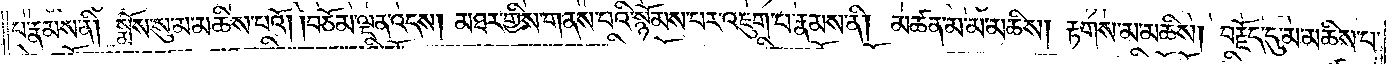པ་རྣམས་ནི། སྨོས་སུ་མ་མཆིས་པའོ། །བཅོམ་ལྡན་འདས། མཐར་གྱིས་གནས་པའི་སྙོམས་པར་འཇུག་པ་རྣམས་ནི། མཚན་མ་མ་མཆིས། རྟགས་མ་མཆིས། བརྗོད་དུ་མ་མཆིས་པ་
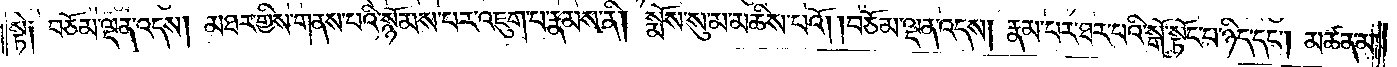སྟེ༑ བཅོམ་ལྡན་འདས། མཐར་གྱིས་གནས་པའི་སྙོམས་པར་འཇུག་པ་རྣམས་ནི། སྨོས་སུ་མ་མཆིས་པའོ། །བཅོམ་ལྡན་འདས། རྣམ་པར་ཐར་པའི་སྒོ་སྟོང་པ་ཉིད་དང༌། མཚན་མ་
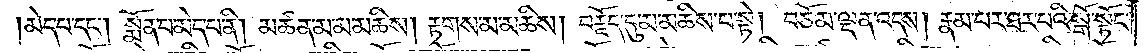མེད་པ་དང༌། སྨོན་པ་མེད་པ་ནི། མཚན་མ་མ་མཆིས། རྟགས་མ་མཆིས། བརྗོད་དུ་མ་མཆིས་པ་སྟེ། བཅོམ་ལྡན་འདས། རྣམ་པར་ཐར་པའི་སྒོ་སྟོང་
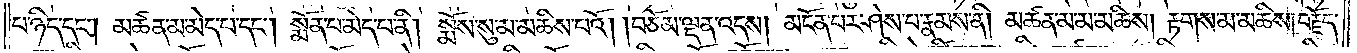པ་ཉིད་དང༌། མཚན་མ་མེད་པ་དང༌། སྨོན་པ་མེད་པ་ནི། སྨོས་སུ་མ་མཆིས་པའོ། །བཅོམ་ལྡན་འདས། མངོན་པར་ཤེས་པ་རྣམས་ནི། མཚན་མ་མ་མཆིས། རྟགས་མ་མཆིས། བརྗོད་
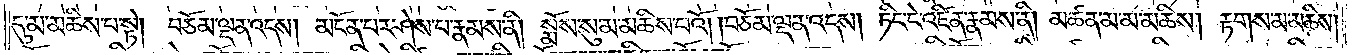དུ་མ་མཆིས་པ་སྟེ། བཅོམ་ལྡན་འདས། མངོན་པར་ཤེས་པ་རྣམས་ནི། སྨོས་སུ་མ་མཆིས་པའོ། །བཅོམ་ལྡན་འདས། ཏིང་ངེ་འཛིན་རྣམས་ནི། མཚན་མ་མ་མཆིས། རྟགས་མ་མཆིས།
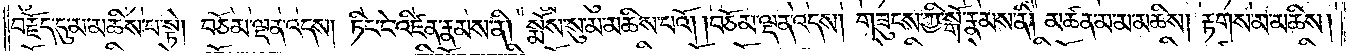བརྗོད་དུ་མ་མཆིས་པ་སྟེ། བཅོམ་ལྡན་འདས། ཏིང་ངེ་འཛིན་རྣམས་ནི། སྨོས་སུ་མ་མཆིས་པའོ། །བཅོམ་ལྡན་འདས། གཟུངས་ཀྱི་སྒོ་རྣམས་ནི། མཚན་མ་མ་མཆིས། རྟགས་མ་མཆིས།
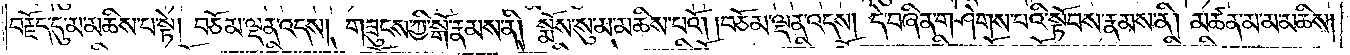བརྗོད་དུ་མ་མཆིས་པ་སྟེ། བཅོམ་ལྡན་འདས། གཟུངས་ཀྱི་སྒོ་རྣམས་ནི། སྨོས་སུ་མ་མཆིས་པའོ། །བཅོམ་ལྡན་འདས། དེ་བཞིན་གཤེགས་པའི་སྟོབས་རྣམས་ནི། མཚན་མ་མ་མཆིས།
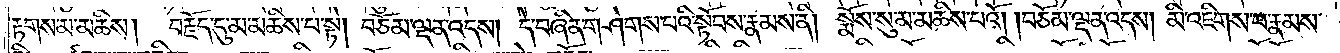རྟགས་མ་མཆིས། བརྗོད་དུ་མ་མཆིས་པ་སྟེ། བཅོམ་ལྡན་འདས། དེ་བཞིན་གཤེགས་པའི་སྟོབས་རྣམས་ནི། སྨོས་སུ་མ་མཆིས་པའོ། །བཅོམ་ལྡན་འདས། མི་འཇིགས་པ་རྣམས་
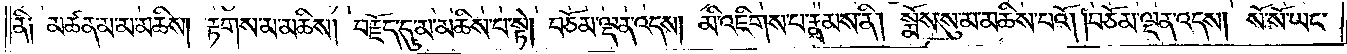ནི༑ མཚན་མ་མ་མཆིས། རྟགས་མ་མཆིས། བརྗོད་དུ་མ་མཆིས་པ་སྟེ། བཅོམ་ལྡན་འདས། མི་འཇིགས་པ་རྣམས་ནི། སྨོས་སུ་མ་མཆིས་པའོ། །བཅོམ་ལྡན་འདས། སོ་སོ་ཡང་
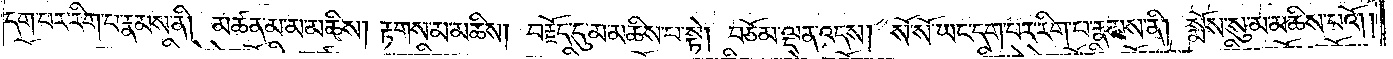དག་པར་རིག་པ་རྣམས་ནི། མཚན་མ་མ་མཆིས། རྟགས་མ་མཆིས། བརྗོད་དུ་མ་མཆིས་པ་སྟེ། བཅོམ་ལྡན་འདས། སོ་སོ་ཡང་དག་པར་རིག་པ་རྣམས་ནི། སྨོས་སུ་མ་མཆིས་པའོ། །
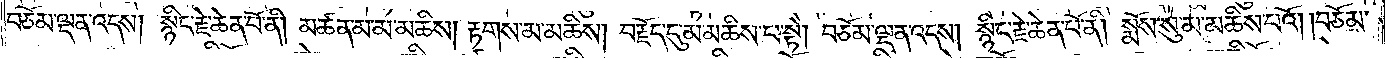བཅོམ་ལྡན་འདས། སྙིང་རྗེ་ཆེན་པོ་ནི། མཚན་མ་མ་མཆིས། རྟགས་མ་མཆིས། བརྗོད་དུ་མ་མཆིས་པ་སྟེ། བཅོམ་ལྡན་འདས། སྙིང་རྗེ་ཆེན་པོ་ནི། སྨོས་སུ་མ་མཆིས་པའོ། །བཅོམ་
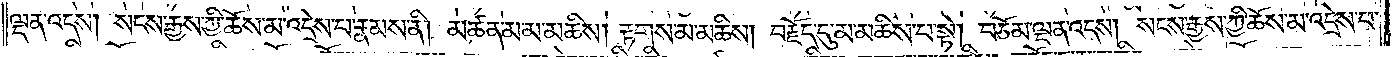ལྡན་འདས། སངས་རྒྱས་ཀྱི་ཆོས་མ་འདྲེས་པ་རྣམས་ནི། མཚན་མ་མ་མཆིས། རྟགས་མ་མཆིས། བརྗོད་དུ་མ་མཆིས་པ་སྟེ། བཅོམ་ལྡན་འདས། སངས་རྒྱས་ཀྱི་ཆོས་མ་འདྲེས་པ་
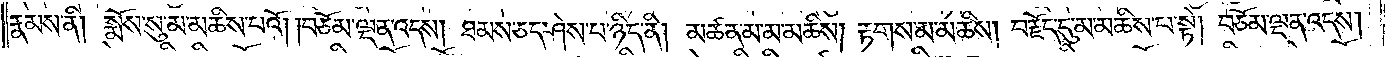རྣམས་ནི། སྨོས་སུ་མ་མཆིས་པའོ། །བཅོམ་ལྡན་འདས། ཐམས་ཅད་ཤེས་པ་ཉིད་ནི། མཚན་མ་མ་མཆིས། རྟགས་མ་མཆིས། བརྗོད་དུ་མ་མཆིས་པ་སྟེ། བཅོམ་ལྡན་འདས།
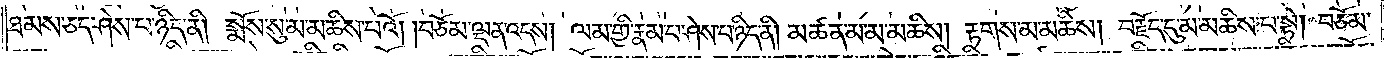ཐམས་ཅད་ཤེས་པ་ཉིད་ནི། སྨོས་སུ་མ་མཆིས་པའོ། །བཅོམ་ལྡན་འདས། ལམ་གྱི་རྣམ་པ་ཤེས་པ་ཉིད་ནི། མཚན་མ་མ་མཆིས། རྟགས་མ་མཆིས། བརྗོད་དུ་མ་མཆིས་པ་སྟེ། བཅོམ་
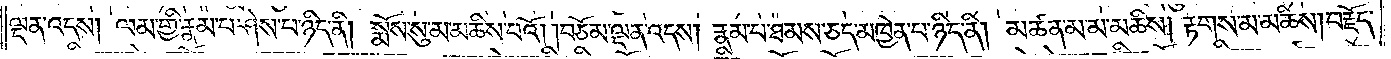ལྡན་འདས། ལམ་གྱི་རྣམ་པ་ཤེས་པ་ཉིད་ནི། སྨོས་སུ་མ་མཆིས་པའོ། །བཅོམ་ལྡན་འདས། རྣམ་པ་ཐམས་ཅད་མཁྱེན་པ་ཉིད་ནི། མཚན་མ་མ་མཆིས། རྟགས་མ་མཆིས། བརྗོད་
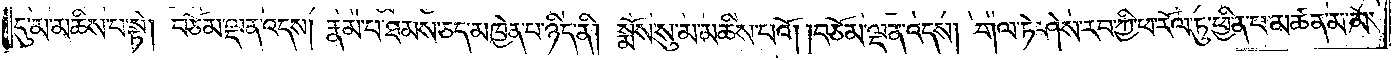དུ་མ་མཆིས་པ་སྟེ། བཅོམ་ལྡན་འདས། རྣམ་པ་ཐམས་ཅད་མཁྱེན་པ་ཉིད་ནི། སྨོས་སུ་མ་མཆིས་པའོ། །བཅོམ་ལྡན་འདས། གལ་ཏེ་ཤེས་རབ་ཀྱི་ཕ་རོལ་ཏུ་ཕྱིན་པ་མཚན་མ་མ་
